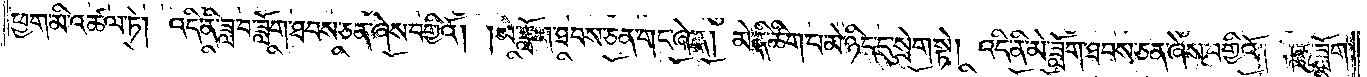ཕྱག་མི་འཚལ་ཏེ། འདི་ནི་ཟླ་བ་ཟློག་ཐབས་ཅན་ཞེས་བགྱིའོ། །མེ་ཟློག་ཐབས་ཅན་གང་ཞེ་ན། མེ་ནི་ཚིག་པ་མེ་ཉིད་དུ་སྲེག་སྟེ། འདི་ནི་མེ་ཟློག་ཐབས་ཅན་ཞེས་བགྱིའོ། །ཆུ་ཟློག་
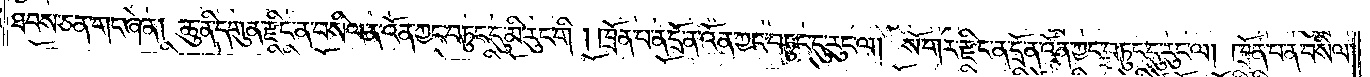ཐབས་ཅན་གང་ཞེ་ན། ཆུ་ནི་དགུན་རྫིང་ན་བསིལ་ན་འོན་ཀྱང་བཏུང་དུ་མི་རུང་གི། ཁྲོན་པ་ན་དྲོ་ན་འོན་ཀྱང་བཏུང་དུ་རུང་ལ། སོ་གར་རྫིང་ན་དྲོ་ན་འོན་ཀྱང་བཏུང་དུ་རུང་ལ། ཁྲོན་པ་ན་བསིལ་
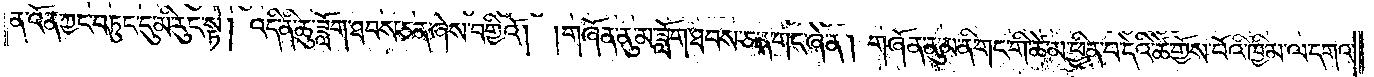ན་འོན་ཀྱང་བཏུང་དུ་མི་རུང་སྟེ། འདི་ནི་ཆུ་ཟློག་ཐབས་ཅན་ཞེས་བགྱིའོ། །གཞོན་ནུ་མ་ཟློག་ཐབས་ཅན་གང་ཞེ་ན། གཞོན་ནུ་མ་ནི་གང་གི་ཚེ་མ་ཕྱིན་པ་དེའི་ཚེ་གྱོས་པོའི་ཁྱིམ་ལ་དགའ་
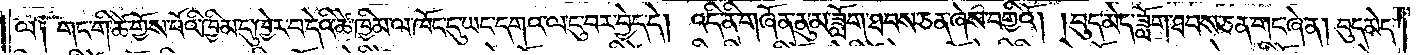ལ༑ གང་གི་ཚེ་གྱོས་པོའི་ཁྱིམ་དུ་ཁྱེར་བ་དེའི་ཚེ་ཁྱིམ་ལ་ཁོང་དུ་ཡང་དགའ་ལ་ངུ་བར་བྱེད་དེ། འདི་ནི་གཞོན་ནུ་མ་ཟློག་ཐབས་ཅན་ཞེས་བགྱིའོ། །བུད་མེད་ཟློག་ཐབས་ཅན་གང་ཞེ་ན། བུད་མེད་
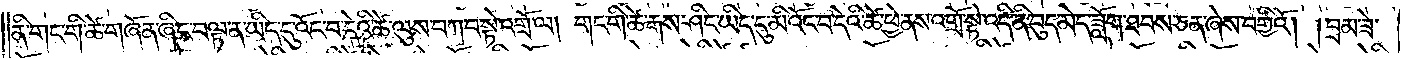ནི་གང་གི་ཚེ་གཞོན་ཞིང་བལྟ་ན་ཡིད་དུ་འོང་བ་དེའི་ཚེ་ལུས་བཀབ་སྟེ་འགྲོ་ལ། གང་གི་ཚེ་རྒས་ཤིང་ཡིད་དུ་མི་འོང་བ་དེའི་ཚེ་ཕྱེ་ནས་འགྲོ་སྟེ་འདི་ནི་བུད་མེད་ཟློག་ཐབས་ཅན་ཞེས་བགྱིའོ། །བྲམ་ཟེ་
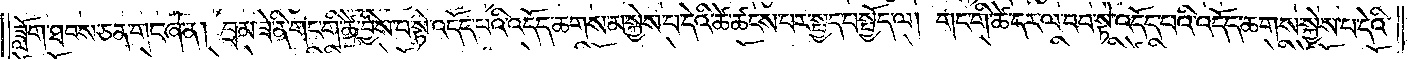ཟློག་ཐབས་ཅན་གང་ཞེ་ན། བྲམ་ཟེ་ནི་གང་གི་ཚེ་བྱིས་པ་སྟེ་འདོད་པའི་འདོད་ཆགས་མ་སྐྱེས་པ་དེའི་ཚེ་ཚངས་པར་སྤྱད་པ་སྤྱོད་ལ། གང་གི་ཚེ་དར་ལ་བབ་སྟེ་འདོད་པའི་འདོད་ཆགས་སྐྱེས་པ་དེའི་
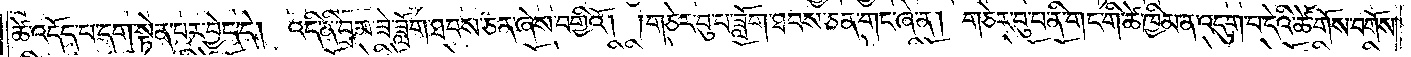ཚེ་འདོད་པ་དག་སྟེན་པར་བྱེད་དེ། འདི་ནི་བྲམ་ཟེ་ཟློག་ཐབས་ཅན་ཞེས་བགྱིའོ། །གཅེར་བུ་པ་ཟློག་ཐབས་ཅན་གང་ཞེ་ན། གཅེར་བུ་པ་ནི་གང་གི་ཚེ་ཁྱིམ་ན་འདུག་པ་དེའི་ཚེ་གོས་བགོས་
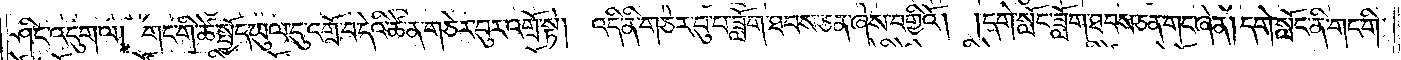ཤིང་འདུག་ལ། གང་གི་ཚེ་སྤྱོད་ཡུལ་དུ་འགྲོ་བ་དེའི་ཚེ་ན་གཅེར་བུར་འགྲོ་སྟེ། འདི་ནི་གཅེར་བུ་པ་ཟློག་ཐབས་ཅན་ཞེས་བགྱིའོ། །དགེ་སློང་ཟློག་ཐབས་ཅན་གང་ཞེ་ན། དགེ་སློང་ནི་གང་གི་
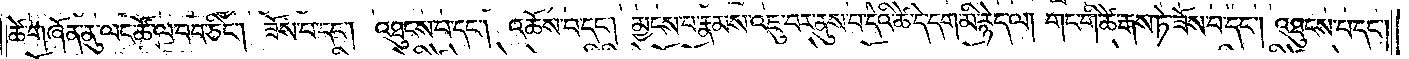ཚེ་གཞོན་ནུ་ལང་ཚོ་ལ་བབ་ཅིང༌། ཟོས་པ་དང༌། འཐུངས་པ་དང༌། འཆོས་པ་དང༌། མྱངས་པ་རྣམས་འཇུ་བར་ནུས་པ་དེའི་ཚེ་དེ་དག་མི་རྙེད་ལ། གང་གི་ཚེ་རྒས་ཏེ་ཟོས་པ་དང༌། འཐུངས་པ་དང༌།
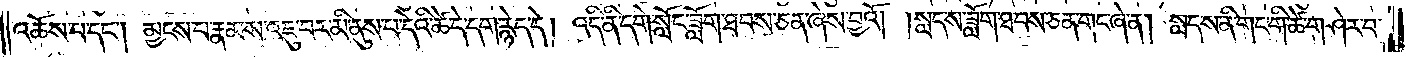འཆོས་པ་དང༌། མྱངས་པ་རྣམས་འཇུ་བར་མི་ནུས་པ་དེའི་ཚེ་དེ་དག་རྙེད་དེ། འདི་ནི་དགེ་སློང་ཟློག་ཐབས་ཅན་ཞེས་བྱའོ། །སླད་ས་ཟློག་ཐབས་ཅན་གང་ཞེ་ན། སླད་ས་ནི་གང་གི་ཚེ་གཤེར་བ་
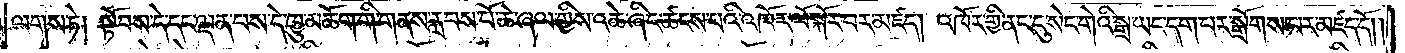ལགས་ཏེ། སྟོབས་དེ་དང་ལྡན་པས་དེ་ཁྱུ་མཆོག་གི་གནས་རླབས་པོ་ཆེ་ཞལ་གྱིས་འཆེ་ཞིང་ཚངས་པའི་འཁོར་ལོ་སྐོར་བར་མཛད། འཁོར་གྱི་ནང་དུ་སེང་གེའི་སྒྲ་ཡང་དག་པར་སྒྲོགས་པར་མཛད་དོ། །
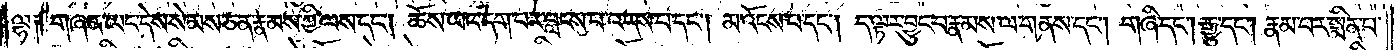ལྷ༑ གཞན་ཡང་དེས་སེམས་ཅན་རྣམས་ཀྱི་ལས་དང༌། ཆོས་ཡང་དག་པར་བླངས་པ་འདས་པ་དང༌། མ་འོངས་པ་དང༌། ད་ལྟར་བྱུང་བ་རྣམས་ལ་གནས་དང༌། གཞི་དང༌། རྒྱུ་དང༌། རྣམ་པར་སྨིན་པ་
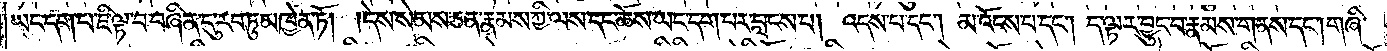ཡང་དག་པ་ཇི་ལྟ་བ་བཞིན་དུ་རབ་ཏུ་མཁྱེན་ཏོ། །དེས་སེམས་ཅན་རྣམས་ཀྱི་ལས་དང་ཆོས་ཡང་དག་པར་བླངས་པ། འདས་པ་དང༌། མ་འོངས་པ་དང༌། ད་ལྟར་བྱུང་བ་རྣམས་གནས་དང༌། གཞི་
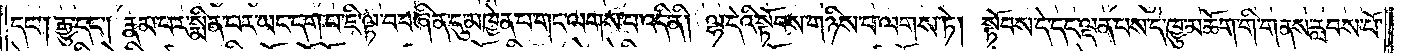དང༌། རྒྱུ་དང༌། རྣམ་པར་སྨིན་པ་ཡང་དག་པ་ཇི་ལྟ་བ་བཞིན་དུ་མཁྱེན་པ་གང་ལགས་པ་འདི་ནི། ལྷ་དེའི་སྟོབས་གཉིས་པ་ལགས་ཏེ། སྟོབས་དེ་དང་ལྡན་པས་དེ་ཁྱུ་མཆོག་གི་གནས་རླབས་པོ་
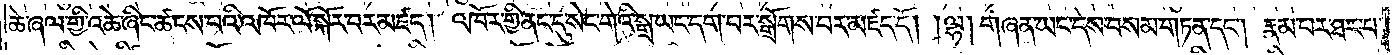ཆེ་ཞལ་གྱི་འཆེ་ཞིང་ཚངས་པའི་འཁོར་ལོ་སྐོར་བར་མཛད། འཁོར་གྱི་ནང་དུ་སེང་གེའི་སྒྲ་ཡང་དག་པར་སྒྲོགས་པར་མཛད་དོ། །ལྷ། གཞན་ཡང་དེས་བསམ་གཏན་དང༌། རྣམ་པར་ཐར་པ་
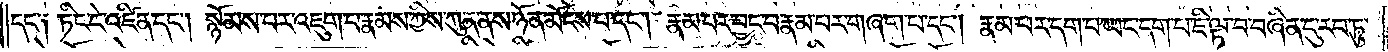དང༌། ཏིང་ངེ་འཛིན་དང༌། སྙོམས་པར་འཇུག་པ་རྣམས་ཀྱིས་ཀུན་ནས་ཉོན་མོངས་པ་དང༌། རྣམ་པར་བྱང་བ་རྣམ་པར་གཞག་པ་དང༌། རྣམ་པར་དག་པ་ཡང་དག་པ་ཇི་ལྟ་བ་བཞིན་དུ་རབ་ཏུ་
